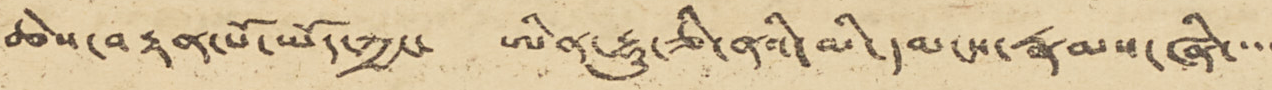ཆེས་བརྟན་པོ་ཡོད་ཀྱང་ ཨིན་རྷུ་ཅི་ནའི་མི་དམངས་རྣམས་ཞི་་་་
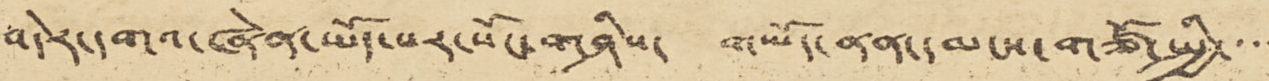བདེར་དགའ་ཞེན་ཡོད་པར་སོང་གཤིས་ གཡོད་ནན་དམངས་གཙོ་སྤྱི་་་་
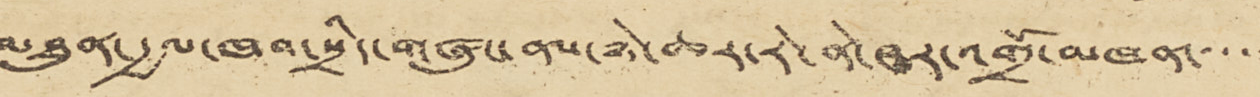མཐུན་རྒྱལ་ཁབ་སྲིད་གཞུང་ནས་ཉེ་ཆར་རེ་ནེ་ཝར་འགྲོ་མཁན་་་་་
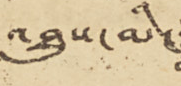འཐུས་མི་
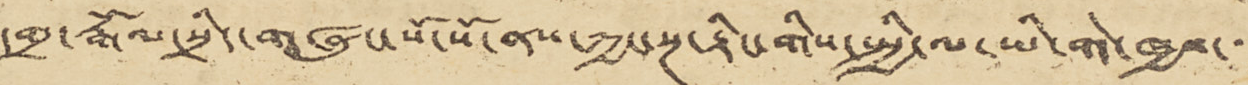དགྲ་རྒོལ་སྲིད་གཞུང་སོ་སོ་ནས་ཀྱང་སྔ་རྟིང་གིས་སྤྱི་ལ་ཡི་གེ་ཁྱབ་་་
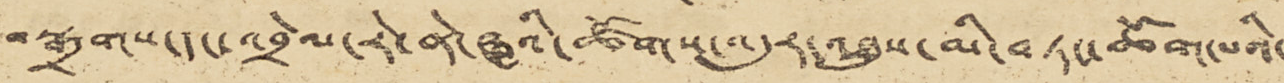བསྒྲགས་དང་འབྲེལ་རེ་ནེ་ཝའི་ཚོགས་འདུར་འཐུས་མི་བཏང་ཆོག་པའི་
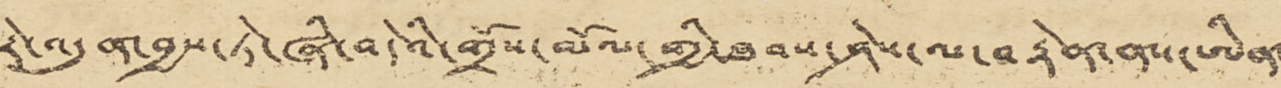རེ་འདུན་བྱས་ཏེ་ཞི་བདེའི་གྲོས་མོལ་གྱི་ཐབས་ཤེས་ལ་བརྟེན་ནས་ཨིན་
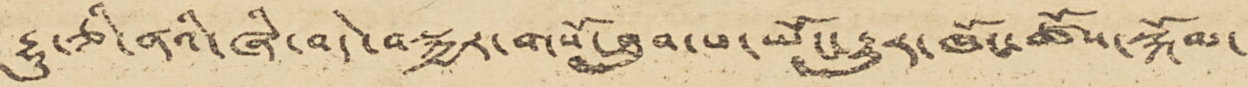རྷུ་ཅི་ནའི་ཞི་བདེ་བསྐྱར་གསོ་ཐུབ་པ་ཡོང་རྒྱུར་ཁོང་ཚོས་སྐོམ་
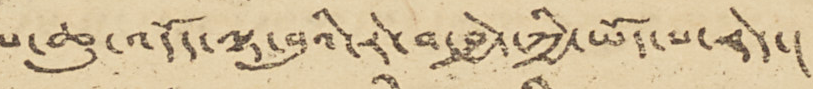པ་ཆུ་འདོད་ལྟ་བུའི་རེ་བ་བྱེད་ཀྱི་ཡོད་པ་རེད་།
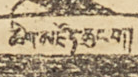ཚིག་མཛོད་ཆུང་བ་།
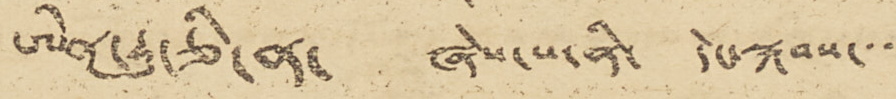ཨིན་རྟུ་ཅི་ན་ ཞེས་པ་ནི་ དེང་སྐབས་་་་
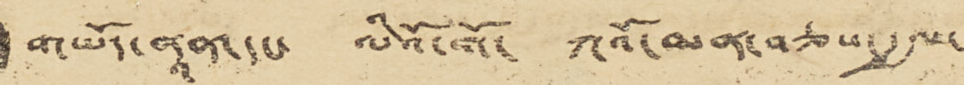གཡོད་ནཱན་དང་ ལིའོ་གོ་ ཀའོ་མན་བཅས་རྒྱལ་
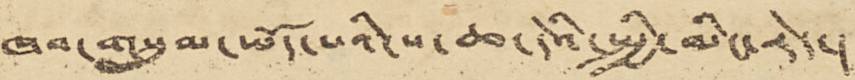ཁབ་གསུམ་ཡོད་པའི་ས་ཆ་དེའི་སྤྱི་མིང་རེད་།
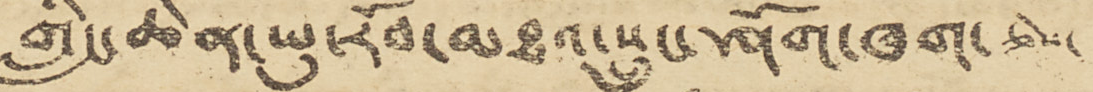གླིང་ཆེན་ཡུ་རོབ་མཐའ་སྲུང་ཤོག་ཁག་ ཅེས་
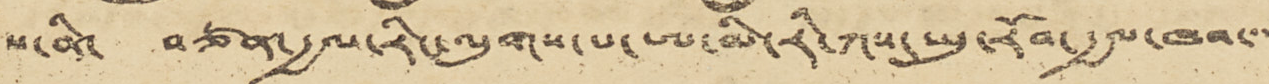པ་ནི་ བཙན་རྒྱལ་རིང་ལུགས་པ་ཨ་མི་རི་ཀས་ཡུ་རོབ་རྒྱལ་ཁབ་་་
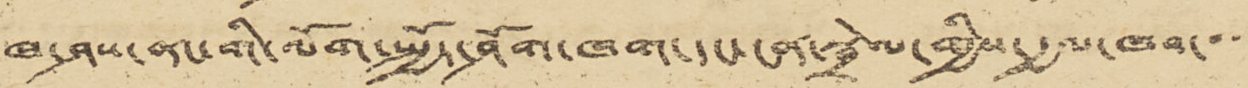ཁ་ཤས་ནང་གི་ལོག་སྤྱོད་ཤོག་ཁག་དང་ངན་སྦྲེལ་གྱིས་རྒྱལ་ཁབ་་་་
